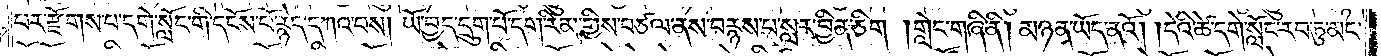པར་རྫོགས་པ་དགེ་སློང་གི་དངོས་པོ་རྙེད་དཀའ་བས། ཡོ་བྱད་དྲུག་པོ་དག་རིམ་གྱིས་བཙལ་ནས་བརྙས་པ་སླར་བྱིན་ཅིག། གླེང་གཞི་ནི། མཉན་ཡོད་ནའོ། །དེའི་ཚེ་དགེ་སློང་རབ་ཏུ་མང་
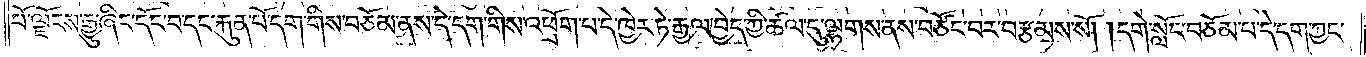པོ་ལྗོངས་རྒྱུ་ཞིང་དོང་བ་དང་རྐུན་པོ་དག་གིས་བཅོམ་ནས་དེ་དག་གིས་འཕྲོག་པ་དེ་ཁྱེར་ཏེ་རྒྱལ་བྱེད་ཀྱི་ཚལ་དུ་ལྷགས་ནས་བཙོང་བར་བརྩམས་སོ། །དགེ་སློང་བཅོམ་པ་དེ་དག་ཀྱང་
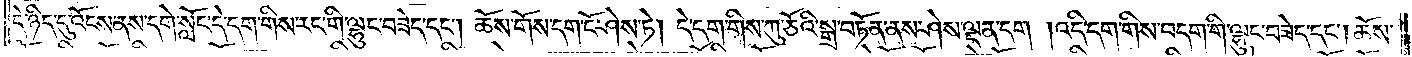དེ་ཉིད་དུ་འོངས་ནས་དགེ་སློང་དེ་དག་གིས་རང་གི་ལྷུང་བཟེད་དང༌། ཆོས་གོས་དག་ངོ་ཤེས་ཏེ། དེ་དག་གིས་ཀུ་ཅོའི་སྒྲ་བཏོན་ནས་ཤེས་ལྡན་དག །འདི་དག་གིས་བདག་གི་ལྷུང་བཟེད་དང༌། ཆོས་
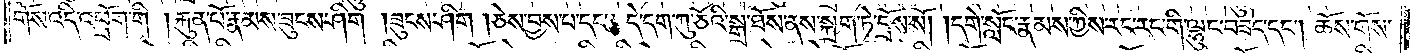གོས་འདི་འཕྲོག་གི །རྐུན་པོ་རྣམས་ཟུངས་ཤིག །ཟུངས་ཤིག །ཅེས་བྱས་པ་དང༌། དེ་དག་ཀུ་ཅོའི་སྒྲ་ཐོས་ནས་སྐྲག་ཏེ་བྲོས་སོ། །དགེ་སློང་རྣམས་ཀྱིས་རང་རང་གི་ལྷུང་བཟེད་དང༌། ཆོས་གོས་
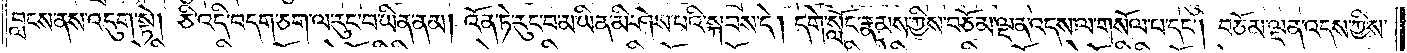བླངས་ནས་འདུག་སྟེ། ཅི་འདི་བདག་ཅག་ལ་རུང་བ་ཡིན་ནམ། འོན་ཏེ་རུང་བ་མ་ཡིན་མི་ཤེས་པའི་སྐབས་དེ། དགེ་སློང་རྣམས་ཀྱིས་བཅོམ་ལྡན་འདས་ལ་གསོལ་པ་དང༌། བཅོམ་ལྡན་འདས་ཀྱིས་
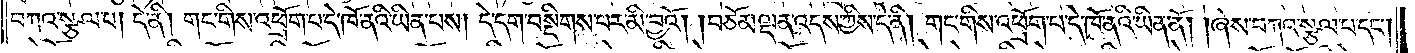བཀའ་སྩལ་པ། དེ་ནི། གང་གིས་འཕྲོག་པ་དེ་ཁོ་ནའི་ཡིན་པས། དེ་དག་བསྡིགས་པར་མི་བྱའོ། །བཅོམ་ལྡན་འདས་ཀྱིས་དེ་ནི། གང་གིས་འཕྲོག་པ་དེ་ཁོ་ནའི་ཡིན་ནོ། །ཞེས་བཀའ་སྩལ་པ་དང༌།
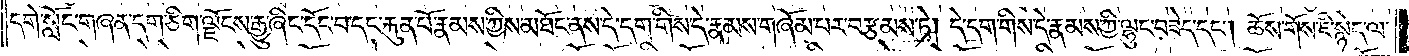དགེ་སློང་གཞན་དག་ཅིག་ལྗོངས་རྒྱུ་ཞིང་དོང་བ་དང་རྐུན་པོ་རྣམས་ཀྱིས་མཐོང་ནས་དེ་དག་གིས་དེ་རྣམས་གཞོམ་པར་བརྩམས་ཏེ། དེ་དག་གིས་དེ་རྣམས་ཀྱི་ལྷུང་བཟེད་དང༌། ཆོས་གོས་ཇི་སྙེད་ལ་
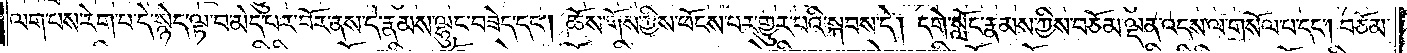ལག་པས་རེག་པ་དེ་སྙེད་ལྟ་བ་མེད་པར་བོར་ནས་དེ་རྣམས་ལྷུང་བཟེད་དང༌། ཆོས་གོས་ཀྱིས་ཕོངས་པར་གྱུར་པའི་སྐབས་དེ། དགེ་སློང་རྣམས་ཀྱིས་བཅོམ་ལྡན་འདས་ལ་གསོལ་བ་དང༌། བཅོམ་
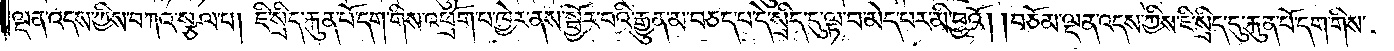ལྡན་འདས་ཀྱིས་བཀའ་སྩལ་པ། ཇི་སྲིད་རྐུན་པོ་དག་གིས་འཕྲོག་པ་ཁྱེར་ནས་སྦྱོར་བའི་རྒྱུན་མ་བཅད་པ་དེ་སྲིད་དུ་ལྟ་བ་མེད་པར་མི་བྱའོ། །བཅོམ་ལྡན་འདས་ཀྱིས་ཇི་སྲིད་དུ་རྐུན་པོ་དག་གིས་
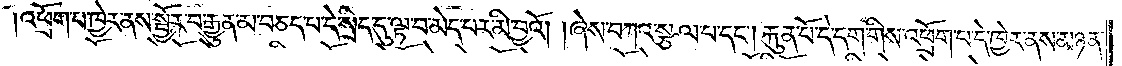འཕྲོག་པ་ཁྱེར་ནས་སྦྱོར་བ་རྒྱུན་མ་བཅད་པ་དེ་སྲིད་དུ་ལྟ་བ་མེད་པར་མི་བྱའོ། །ཞེས་བཀའ་སྩལ་པ་དང༌། རྐུན་པོ་དེ་དག་གིས་འཕྲོག་པ་དེ་ཁྱེར་ནས་མཉན་
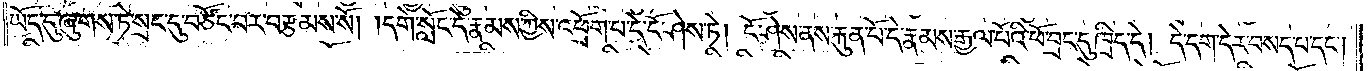ཡོད་དུ་ཞུགས་ཏེ་སྲང་དུ་བཙོང་བར་བརྩམས་སོ། །དགེ་སློང་དེ་རྣམས་ཀྱིས་འཕྲོག་པ་དེ་ངོ་ཤེས་ཏེ། ངོ་ཤེས་ནས་རྐུན་པོ་དེ་རྣམས་རྒྱལ་པོའི་ཕོ་བྲང་དུ་ཁྲིད་དེ། དེ་དག་དེར་བསད་པ་དང༌།
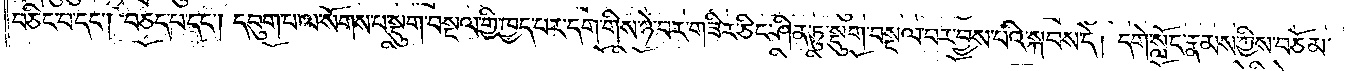བཅིང་བ་དང༌། བཅད་པ་དང༌། དབུག་པ་ལ་སོགས་པ་སྡུག་བསྔལ་གྱི་ཁྱད་པར་དག་གིས་ཉེ་བར་གཟིར་ཅིང་ཤིན་ཏུ་སྡུག་བསྔལ་བར་བྱས་པའི་སྐབས་དེ། དགེ་སློང་རྣམས་ཀྱིས་བཅོམ་
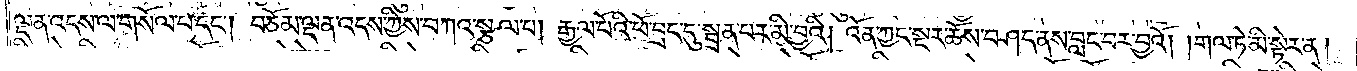ལྡན་འདས་ལ་གསོལ་པ་དང༌། བཅོམ་ལྡན་འདས་ཀྱིས་བཀའ་སྩལ་པ། རྒྱལ་པོའི་ཕོ་བྲང་དུ་སྦྲན་པར་མི་བྱའི། འོན་ཀྱང་སྔར་ཆོས་བཤད་ནས་བླང་བར་བྱའོ། །གལ་ཏེ་མི་སྟེར་ན།
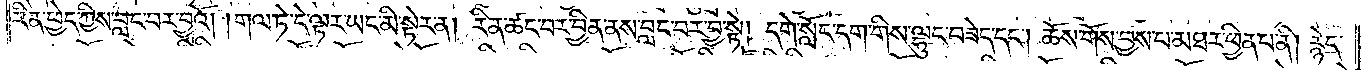རིན་ཕྱེད་ཀྱིས་བླང་བར་བྱའོ། །གལ་ཏེ་དེ་ལྟར་ཡང་མི་སྟེར་ན། རིན་ཚང་བར་བྱིན་ནས་བླང་བར་བྱ་སྟེ། དགེ་སློང་དག་གིས་ལྷུང་བཟེད་དང༌། ཆོས་གོས་བྱས་པ་མཐར་ཕྱིན་པ་ནི། རྙེད་
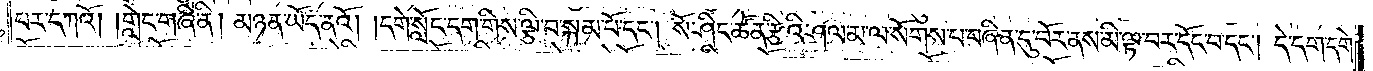པར་དཀའོ། །གླེང་གཞི་ནི། མཉན་ཡོད་ནའོ། །དགེ་སློང་དག་གིས་ལྕི་བ་སྐམ་པོ་དང༌། སོ་ཤིང་ཚོན་རྩིའི་ཤལ་མ་ལ་སོགས་པ་བཞིན་དུ་བོར་ནས་མི་ལྟ་བར་དོང་བ་དང༌། དེ་དག་དགེ་
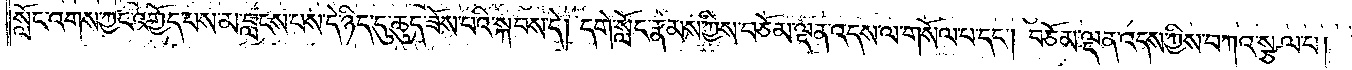སློང་འགས་ཀྱང་འགྱོད་པས་མ་བླངས་པས་དེ་ཉིད་དུ་ཆུད་ཟོས་པའི་སྐབས་དེ། དགེ་སློང་རྣམས་ཀྱིས་བཅོམ་ལྡན་འདས་ལ་གསོལ་པ་དང༌། བཅོམ་ལྡན་འདས་ཀྱིས་བཀའ་སྩལ་པ།
